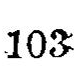103
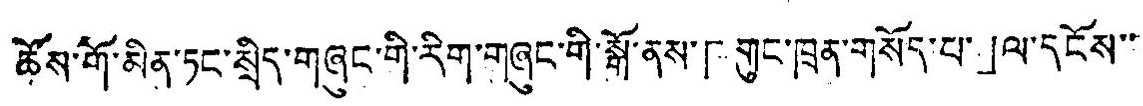ཚོས་གོ་མིན་ཏང་སྲིད་གཞུང་གི་རིག་གཞུང་གི་སྒོ་ནས་「གུང་ཁྲན་གསོད་པ་」ལ་དངོས་་
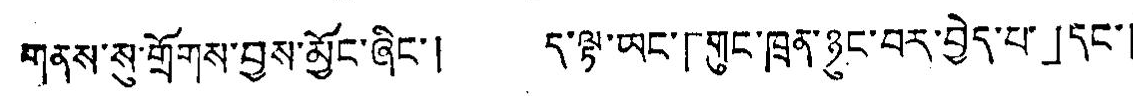གནས་སུ་གྲོགས་བྱས་མྱོང་ཞིང་། ད་ལྟ་ཡང་「གུང་ཁྲན་ཉང་བར་བྱེད་པ་」དང་།
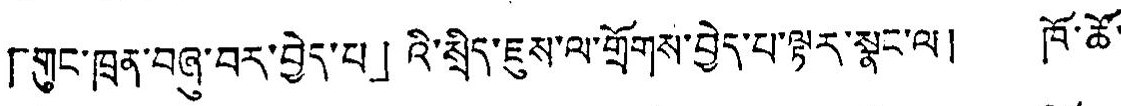「གུང་ཁྲན་བཞུ་བར་བྱེད་པ」འི་སྲིད་ཇུས་ལ་གྲོགས་བྱེད་པ་ལྟར་སྣང་ལ། ཁོ་ཚོ་
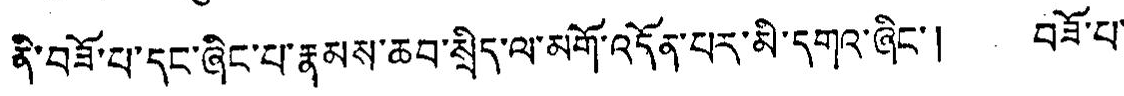ནི་བཟོ་པ་དང་ཞིང་པ་རྣམས་ཆབ་སྲིད་ལ་མགོ་འདོན་པར་མི་དགའ་ཞིང་། བཟོ་པ་
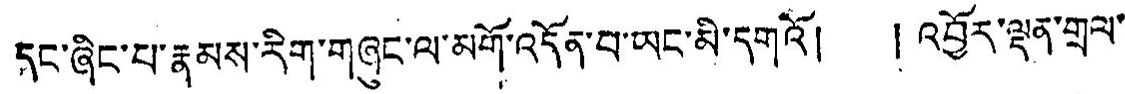ཏང་ཞིང་པ་རྣམས་རིག་གཞུང་ལ་མགོ་འདོན་བ་ཡང་མི་དགའོ། །འབྱོར་ལྡན་གྲལ་
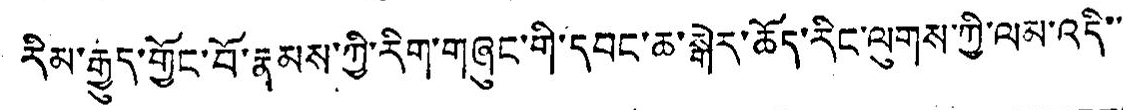རིམ་རྒྱུད་གྱོང་བོ་རྣམས་ཀྱི་རིག་གཞུང་གི་དབང་ཆ་སྒེར་ཆོད་རིང་ལུགས་ཀྱི་ལམ་འདི་་་
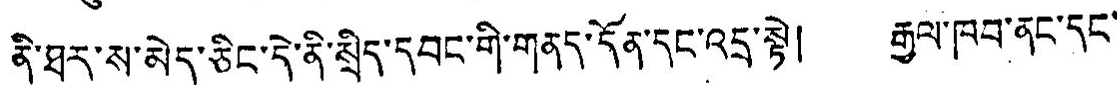ནི་ཐར་ས་མེད་ཅིང་དེ་ནི་སྲིད་དབང་གི་གནད་དོན་དང་འདྲ་སྟེ། རྒྱལ་ཁབ་ནང་དང་
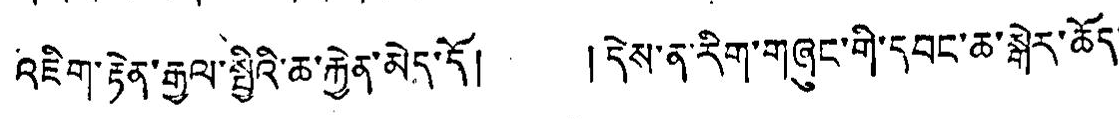འཇིག་རྟེན་རྒྱལ་སྤྱིའི་ཆ་རྐྱེན་མེད་དོ། །དེས་ན་རིག་གཞུང་གི་དབང་ཆ་སྒེར་ཆོད་
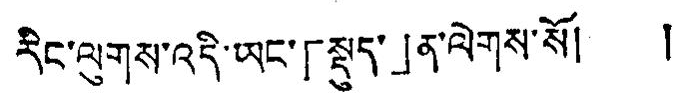རིང་ལུགས་འདི་ཡང་「སྡུད་」ན་ལེགས་སོ། །
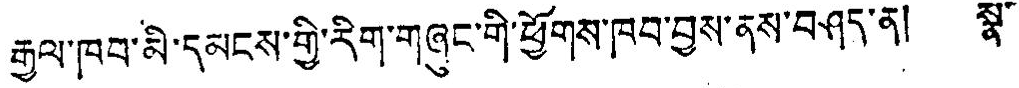རྒྱལ་ཁབ་མི་དམངས་གྱི་རིག་གཞུང་གི་ཕྱོགས་ཁབ་བྱས་ནས་བཤད་ན། སྣ་
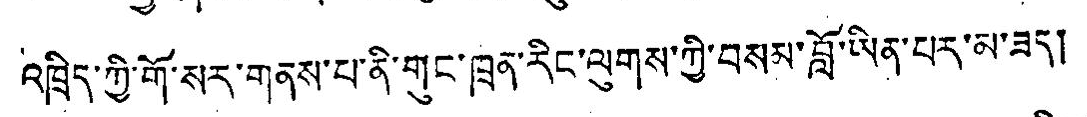འཁྲིད་ཀྱི་གོ་སར་གནས་པ་ནི་གུང་ཁྲན་རིང་ལུགས་ཀྱི་བསམ་བློ་ཡིན་པར་མ་ཟད།
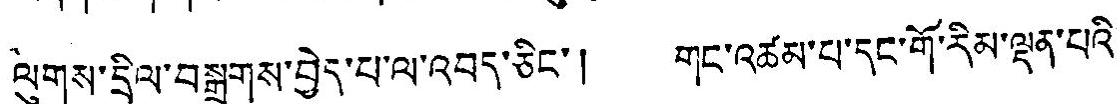ལུགས་དྲིལ་བསྒྲགས་བྱེད་པ་ལ་འབད་ཅིང་། གང་འཚམ་པ་དང་གོ་རིམ་ལྡན་པའི་
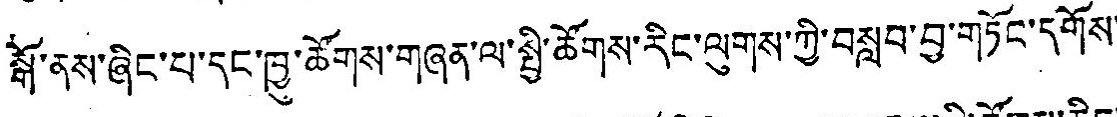སྒོ་ནས་ཞིང་པ་དང་ཁྱུ་ཚོགས་གཞན་ལ་སྤྱི་ཚོགས་རིང་ལུགས་ཀྱི་བསླབ་བྱ་གཏོང་དགོས་
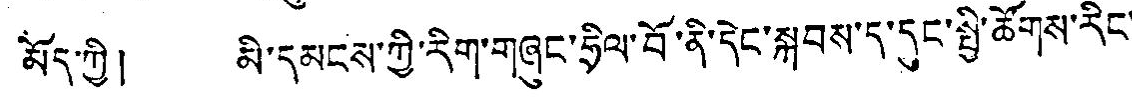མོད་ཀྱི། མི་དམངས་ཀྱི་རིག་གཞུང་ཧྲིལ་བོ་ནི་དེང་སྐབས་ད་དུང་སྤྱི་ཚོགས་རིང་
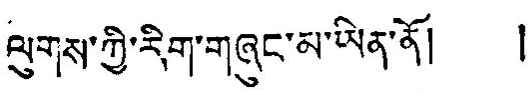ལུགས་ཀྱི་རིག་གཞུང་མ་ཡིན་ནོ། །
